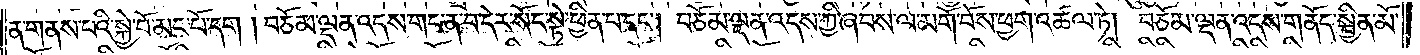ན་གནས་པའི་སྐྱེ་བོ་མང་པོ་དག། བཅོམ་ལྡན་འདས་གང་ན་བ་དེར་སོང་སྟེ་ཕྱིན་པ་དང༌། བཅོམ་ལྡན་འདས་ཀྱི་ཞབས་ལ་མགོ་བོས་ཕྱག་འཚལ་ཏེ། བཅོམ་ལྡན་འདས་གནོད་སྦྱིན་མོ་
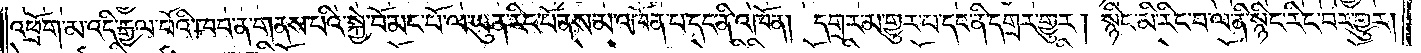འཕྲོག་མ་འདི་རྒྱལ་པོའི་ཁབ་ན་གནས་པའི་སྐྱེ་བོ་མང་པོ་ལ་ཡུན་རིང་པོ་ནས་མ་འཁོན་པ་དང་ནི་འཁོན། དགྲར་མ་གྱུར་པ་དང་ནི་དགྲར་གྱུར། སྙིང་མི་རིང་བ་ལ་ནི་སྙིང་རིང་བར་གྱུར།
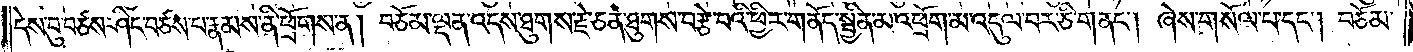དེས་བུ་བཙས་ཤིང་བཙས་པ་རྣམས་ནི་ཕྲོགས་ན། བཅོམ་ལྡན་འདས་ཐུགས་རྗེ་ཅན་ཐུགས་བརྩེ་བའི་ཕྱིར་གནོད་སྦྱིན་མ་འཕྲོག་མ་འདུལ་བར་ཅི་གནང༌། ཞེས་གསོལ་པ་དང༌། བཅོམ་
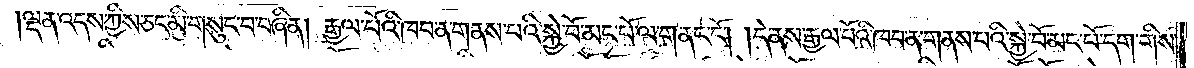ལྡན་འདས་ཀྱིས་ཅང་མི་གསུང་བ་བཞིན། རྒྱལ་པོའི་ཁབ་ན་གནས་པའི་སྐྱེ་བོ་མང་པོ་ལ་གནང་ངོ༌། །དེ་ནས་རྒྱལ་པོའི་ཁབ་ན་གནས་པའི་སྐྱེ་བོ་མང་པོ་དག་གིས་
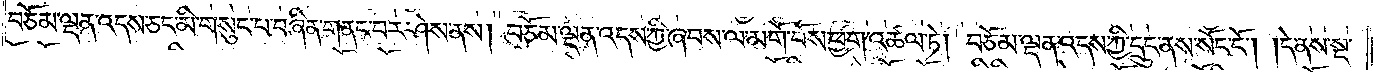བཅོམ་ལྡན་འདས་ཅང་མི་གསུང་བ་བཞིན་གནང་བར་ཤེས་ནས། བཅོམ་ལྡན་འདས་ཀྱི་ཞབས་ལ་མགོ་བོས་ཕྱག་འཚལ་ཏེ། བཅོམ་ལྡན་འདས་ཀྱི་དྲུང་ནས་སོང་ངོ༌། །དེ་ནས་སྔ་
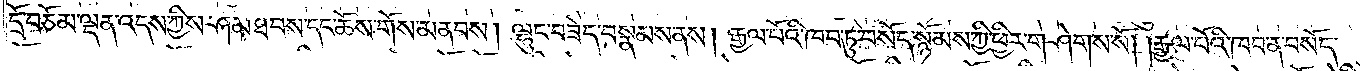དྲོ་བཅོམ་ལྡན་འདས་ཀྱིས་ཤམ་ཐབས་དང་ཆོས་གོས་མནབས། ལྷུང་བཟེད་བསྣམས་ནས། རྒྱལ་པོའི་ཁབ་ཏུ་བསོད་སྙོམས་ཀྱི་ཕྱིར་གཤེགས་སོ། །རྒྱལ་པོའི་ཁབ་ན་བསོད་
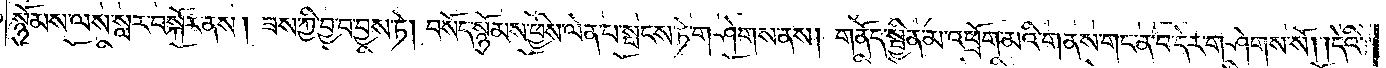སྙོམས་ལས་སླར་བསྐོར་ནས། ཟས་ཀྱི་བྱ་བ་བྱས་ཏེ། བསོད་སྙོམས་ཕྱིས་ལེན་པ་སྤངས་ཏེ་གཤེགས་ནས། གནོད་སྦྱིན་མ་འཕྲོག་མའི་གནས་གང་ན་བ་དེར་གཤེགས་སོ། །དེའི་
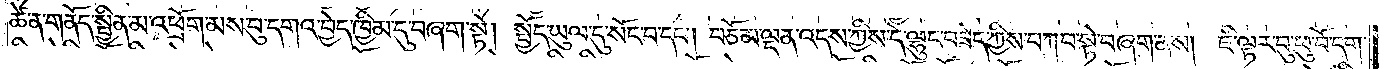ཚེ་ན་གནོད་སྦྱིན་མ་འཕྲོག་མས་བུ་དགའ་བྱེད་ཁྱིམ་དུ་བཞག་སྟེ། སྤྱོད་ཡུལ་དུ་སོང་བ་དང༌། བཅོམ་ལྡན་འདས་ཀྱིས་དེ་ལྷུང་བཟེད་ཀྱིས་བཀབ་སྟེ་བཞག་ནས། ཇི་ལྟར་བུ་ཕུ་བོ་དག་
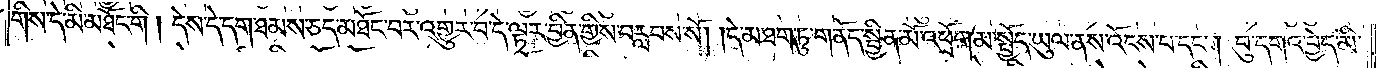གིས་དེ་མི་མཐོང་གི། དེས་དེ་དག་ཐམས་ཅད་མཐོང་བར་འགྱུར་བ་དེ་ལྟར་བྱིན་གྱིས་བརླབས་སོ། །དེ་མ་ཐག་ཏུ་གནོད་སྦྱིན་མོ་འཕྲོག་མ་སྤྱོད་ཡུལ་ནས་འོངས་པ་དང༌། བུ་དགའ་བྱེད་མི་
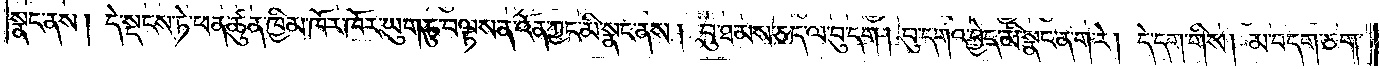སྣང་ནས། དེ་སྡངས་ཏེ་ཕན་ཚུན་ཁྱིམ་ཁོར་ཁོར་ཡུག་ཏུ་བལྟས་ན་འོན་ཀྱང་མི་སྣང་ནས། བུ་ཐམས་ཅད་ལ་བུ་དག །བུ་དགའ་བྱེད་མི་སྣང་ན་ག་རེ། དེ་དག་གིས། མ་བདག་ཅག་
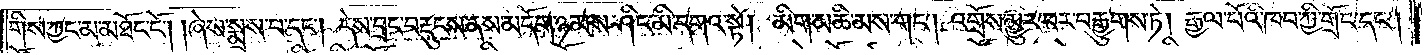གིས་ཀྱང་མ་མཐོང་ངོ༌། །ཞེས་སྨྲས་པ་དང༌། དེས་བྲང་བརྡུངས་ནས་མདོག་ཉམས་ཤིང་མི་དགའ་སྟེ། མིག་མཆི་མས་གང༌། འགྲོས་མྱུར་བར་བརྒྱུགས་ཏེ། རྒྱལ་པོའི་ཁབ་ཀྱི་གྲོང་དང༌།
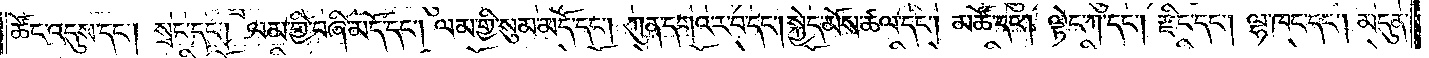ཚོང་འདུས་དང༌། སྲང་དང༌། ལམ་གྱི་བཞི་མདོ་དང༌། ལམ་གྱི་སུམ་མདོ་དང༌། ཀུན་དགའ་ར་བ་དང༌། སྐྱེད་མོས་ཚལ་དང༌། མཚོ་དང༌། ལྟེང་ཀ་དང༌། རྫིང་དང༌། ལྷ་ཁང་དང༌། མདུན་
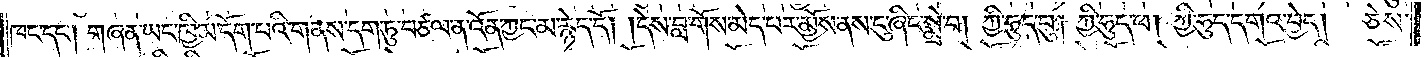ཁང་དང༌། གཞན་ཡང་ཁྱིམ་དོག་པའི་གནས་དག་ཏུ་བཙལ་ན་འོན་ཀྱང་མ་རྙེད་དོ། །དེས་བླ་གོས་མེད་པར་མྱོས་ནས་ངུ་ཞིང་སྨྲེ་བ། ཀྱི་ཧུད་བུ། ཀྱི་ཧུད་ཕ། ཀྱི་ཧུད་དགའ་བྱེད། ཅེས་
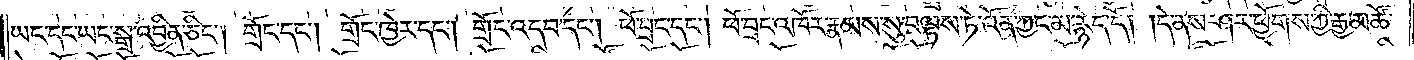ཡང་དང་ཡང་སྒྲ་འབྱིན་ཅིང༌། གྲོང་དང༌། གྲོང་ཁྱེར་དང༌། གྲོང་འདབ་དང༌། ཕོ་བྲང་དང༌། ཕོ་བྲང་འཁོར་རྣམས་སུ་བལྟས་ཏེ་འོན་ཀྱང་མ་རྙེད་དོ། །དེ་ནས་ཤར་ཕྱོགས་ཀྱི་རྒྱ་མཚོ་
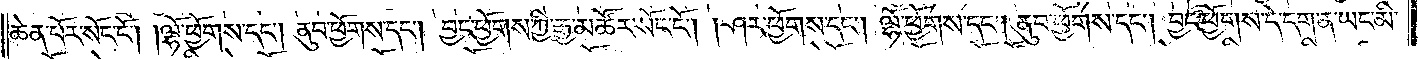ཆེན་པོར་སོང་ངོ༌། །ལྷོ་ཕྱོགས་དང༌། ནུབ་ཕྱོགས་དང༌། བྱང་ཕྱོགས་ཀྱི་རྒྱ་མཚོར་སོང་ངོ༌། །ཤར་ཕྱོགས་དང༌། ལྷོ་ཕྱོགས་དང༌། ནུབ་ཕྱོགས་དང༌། བྱང་ཕྱོགས་དེ་དག་ན་ཡང་མི་
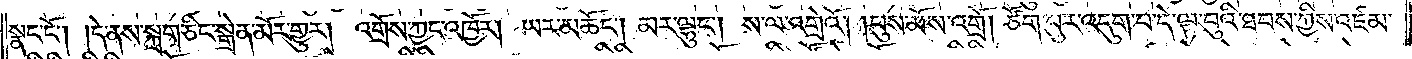སྣང་ངོ༌། །དེ་ནས་སྐྲག་ཅིང་སྒྲེན་མོར་གྱུར། འགྲོས་ཀྱང་འཁྱོར། ཡར་མཆོང༌། མར་ལྷུང༌། ས་ལ་འགྲེའོ། །པུས་མོས་འགྲོ། ཙོག་པུར་འདུག་པ་དེ་ལྟ་བུའི་ཐབས་ཀྱིས་འཛམ་
